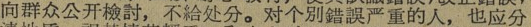向群众公开檢討，不給处分。对个別錯誤严重的人，也应分
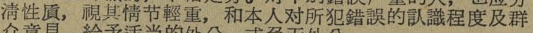清性貭，視其情节輕重，和本人对所犯錯誤的认識程度及群
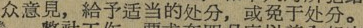众意見，給予适当的处分，或免于处分。
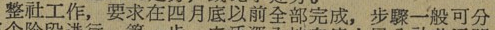整社工作，要求在四月底以前全部完成，步驟一般可分
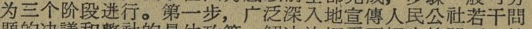为三个阶段进行。第一步，广泛深入地宣傳人民公社若干問
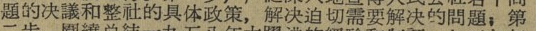題的决議和整社的具体政策，解决迫切需要解决的問題；第
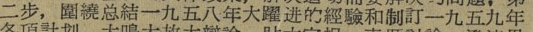二步，圍繞总結一九五八年大躍进的經驗和制定一九五九年
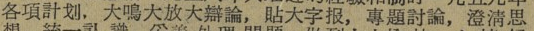各項計划，大鳴大放大辯論，貼大字报，專題討論，澄清思
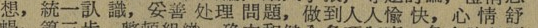想，統一认 識，妥善 处理 問題，做到人人愉 快，心 情 舒
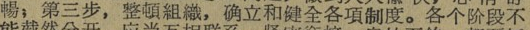暢；第三步，整頓組織，确立和健全各項制度。各个阶段不
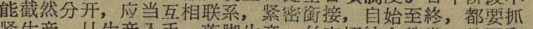能截然分开，应当互相联系，紧密銜接，自始至终，都要抓
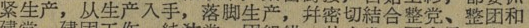紧生产，从生产入手，落脚生产，并密切結合整党、整团和
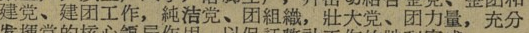建党、建团工作，纯洁党、团組織，壮大党、团力量，充分
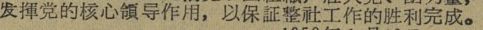发揮党的核心領导作用，以保証整社工作的胜利完成。
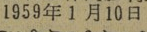1959年1月10日
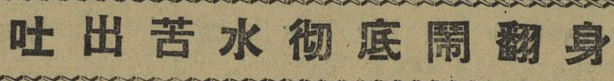吐 出 苦 水 彻 底 鬧 翻 身
